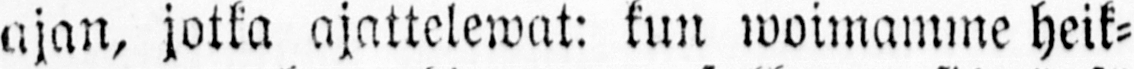ajan, jotka ajattelewat: kun woimamme heik-
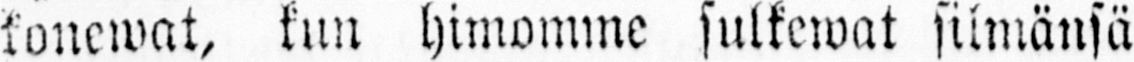konewat, kun himomme sulkewat silmänsä
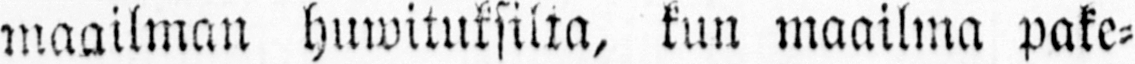maailman huwituksilta, kun maailma pake-
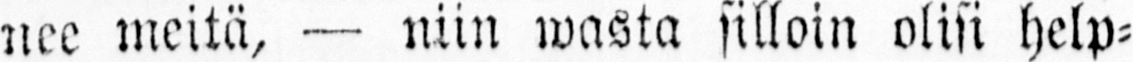nee meitä, — niin wasta silloin olisi help-
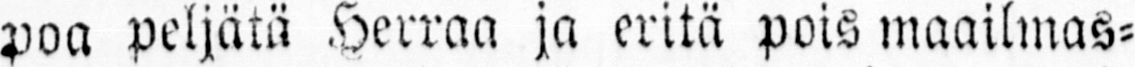poa peljätä Herraa ja eritä pois maailmas-
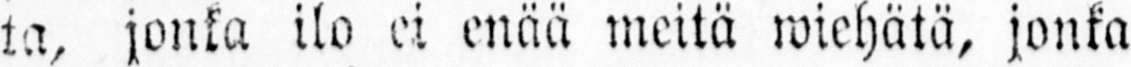ta, jonka ilo ei enää meitä wiehätä, jonka
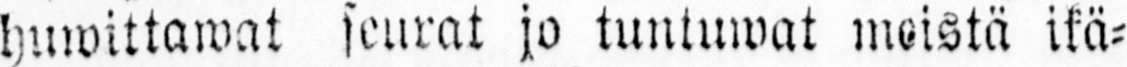huwittawat seurat jo tuntuwat moistä ikä-
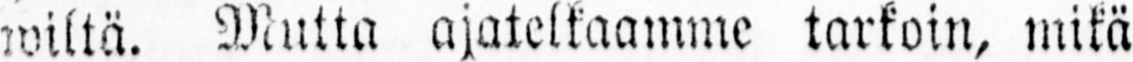wiltä. Mutta ajatelkaamme tarkoin, mikä
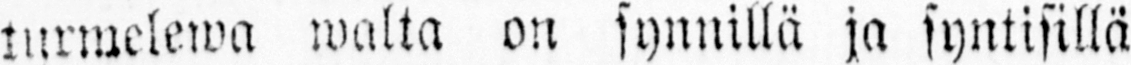turmelewa walta on synnillä ja syntisillä
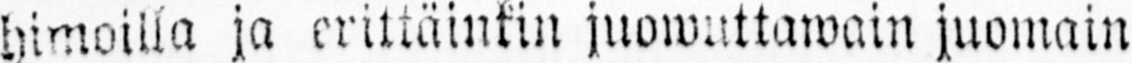himoilla ja erittäinkin juowuttawain juomain
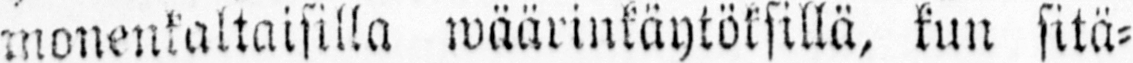monenkaltaisilla wäärinkäytöksillä, kun sitä-
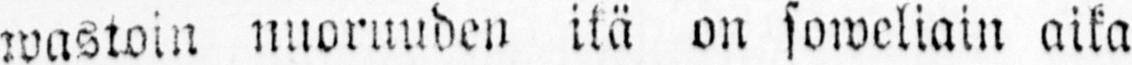wastoin nuoruuden ikä on soweliain aika
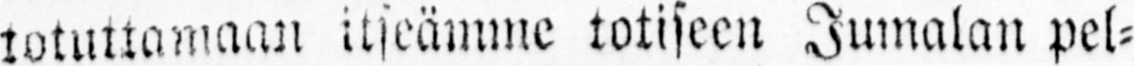totuttamaan itseämme totiseen Jumalan pel-
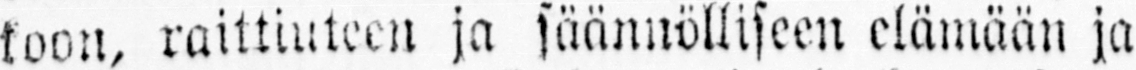koon, raittiuteen ja säännölliseen elämään ja
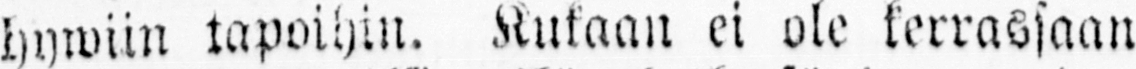hywiin tapoihin. Kukaan ei ole kerrassaan
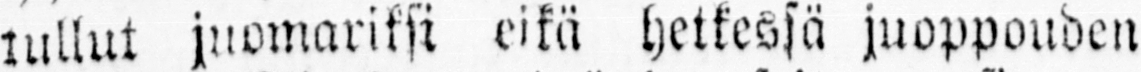tullut juomariksi eikä hetkessä juoppouden
